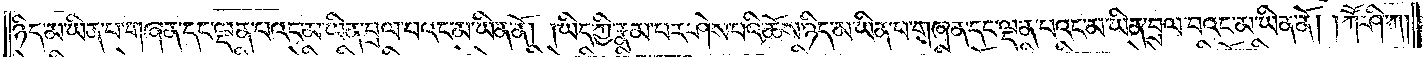ཉིད་མ་ཡིན་པ་གཞན་དང་ལྡན་པའང་མ་ཡིན་བྲལ་བའང་མ་ཡིན་ནོ། །ཡིད་ཀྱི་རྣམ་པར་ཤེས་པའི་ཆོས་ཉིད་མ་ཡིན་པ་གཞན་དང་ལྡན་པའང་མ་ཡིན་བྲལ་བའང་མ་ཡིན་ནོ། །ཀཽ་ཤི་ཀ །
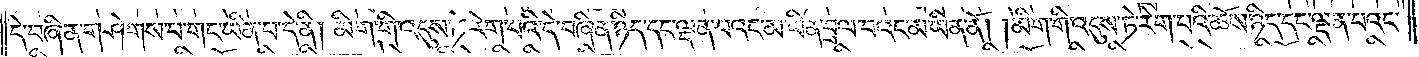དེ་བཞིན་གཤེགས་པ་གང་ཡིན་པ་དེ་ནི། མིག་གི་འདུས་ཏེ་རེག་པའི་དེ་བཞིན་ཉིད་དང་ལྡན་པའང་མ་ཡིན་བྲལ་བའང་མ་ཡིན་ནོ། །མིག་གི་འདུས་ཏེ་རེག་པའི་ཆོས་ཉིད་དང་ལྡན་པའང་
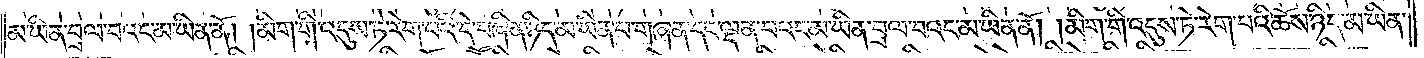མ་ཡིན་བྲལ་བའང་མ་ཡིན་ནོ། །མིག་གི་འདུས་ཏེ་རེག་པའི་དེ་བཞིན་ཉིད་མ་ཡིན་པ་གཞན་དང་ལྡན་པའང་མ་ཡིན་བྲལ་བའང་མ་ཡིན་ནོ། །མིག་གི་འདུས་ཏེ་རེག་པའི་ཆོས་ཉིད་མ་ཡིན་
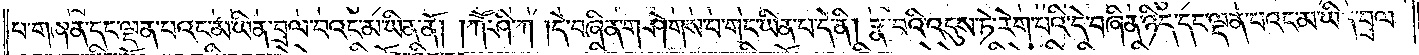པ་གཞན་དང་ལྡན་པའང་མ་ཡིན་བྲལ་བའང་མ་ཡིན་ནོ། །ཀཽ་ཤི་ཀ །དེ་བཞིན་གཤེགས་པ་གང་ཡིན་པ་དེ་ནི། རྣ་བའི་འདུས་ཏེ་རེག་པའི་དེ་བཞིན་ཉིད་དང་ལྡན་པའང་མ་ཡིན་བྲལ་
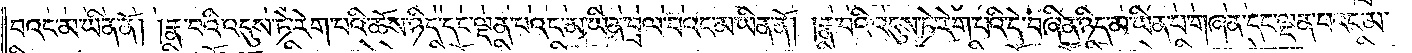བའང་མ་ཡིན་ནོ། །རྣ་བའི་འདུས་ཏེ་རེག་པའི་ཆོས་ཉིད་དང་ལྡན་པའང་མ་ཡིན་བྲལ་བའང་མ་ཡིན་ནོ། །རྣ་བའི་འདུས་ཏེ་རེག་པའི་དེ་བཞིན་ཉིད་མ་ཡིན་པ་གཞན་དང་ལྡན་པའང་མ་
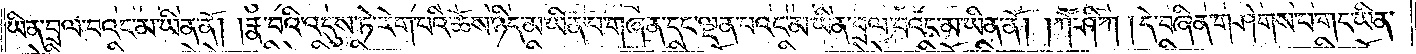ཡིན་བྲལ་བའང་མ་ཡིན་ནོ། །རྣ་བའི་འདུས་ཏེ་རེག་པའི་ཆོས་ཉིད་མ་ཡིན་པ་གཞན་དང་ལྡན་པའང་མ་ཡིན་བྲལ་བའང་མ་ཡིན་ནོ། །ཀཽ་ཤི་ཀ །དེ་བཞིན་གཤེགས་པ་གང་ཡིན་
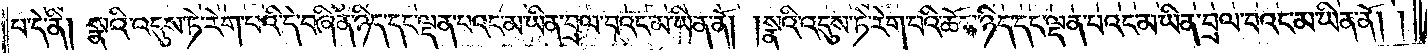པ་དེ་ནི། སྣའི་འདུས་ཏེ་རེག་པའི་དེ་བཞིན་ཉིད་དང་ལྡན་པའང་མ་ཡིན་བྲལ་བའང་མ་ཡིན་ནོ། །སྣའི་འདུས་ཏེ་རེག་པའི་ཆོས་ཉིད་དང་ལྡན་པའང་མ་ཡིན་བྲལ་བའང་མ་ཡིན་ནོ། །
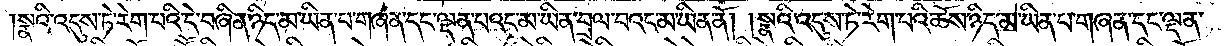སྣའི་འདུས་ཏེ་རེག་པའི་དེ་བཞིན་ཉིད་མ་ཡིན་པ་གཞན་དང་ལྡན་པའང་མ་ཡིན་བྲལ་བའང་མ་ཡིན་ནོ། །སྣའི་འདུས་ཏེ་རེག་པའི་ཆོས་ཉིད་མ་ཡིན་པ་གཞན་དང་ལྡན་
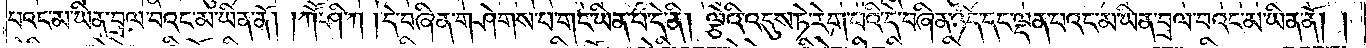པའང་མ་ཡིན་བྲལ་བའང་མ་ཡིན་ནོ། །ཀཽ་ཤི་ཀ །དེ་བཞིན་གཤེགས་པ་གང་ཡིན་པ་དེ་ནི། ལྕེའི་འདུས་ཏེ་རེག་པའི་དེ་བཞིན་ཉིད་དང་ལྡན་པའང་མ་ཡིན་བྲལ་བའང་མ་ཡིན་ནོ། །
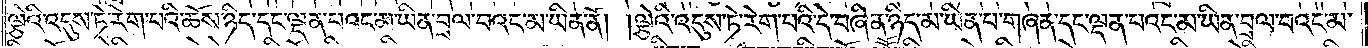ལྕེའི་འདུས་ཏེ་རེག་པའི་ཆོས་ཉིད་དང་ལྡན་པའང་མ་ཡིན་བྲལ་བའང་མ་ཡིན་ནོ། །ལྕེའི་འདུས་ཏེ་རེག་པའི་དེ་བཞིན་ཉིད་མ་ཡིན་པ་གཞན་དང་ལྡན་པའང་མ་ཡིན་བྲལ་བའང་མ་
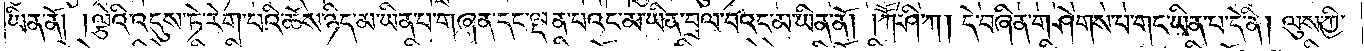ཡིན་ནོ། །ལྕེའི་འདུས་ཏེ་རེག་པའི་ཆོས་ཉིད་མ་ཡིན་པ་གཞན་དང་ལྡན་པའང་མ་ཡིན་བྲལ་བའང་མ་ཡིན་ནོ། །ཀཽ་ཤི་ཀ །དེ་བཞིན་གཤེགས་པ་གང་ཡིན་པ་དེ་ནི། ལུས་ཀྱི་
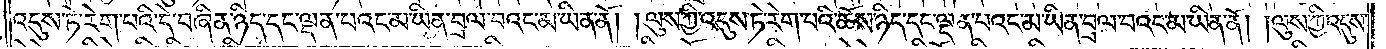འདུས་ཏེ་རེག་པའི་དེ་བཞིན་ཉིད་དང་ལྡན་པའང་མ་ཡིན་བྲལ་བའང་མ་ཡིན་ནོ། །ལུས་ཀྱི་འདུས་ཏེ་རེག་པའི་ཆོས་ཉིད་དང་ལྡན་པའང་མ་ཡིན་བྲལ་བའང་མ་ཡིན་ནོ། །ལུས་ཀྱི་འདུས་
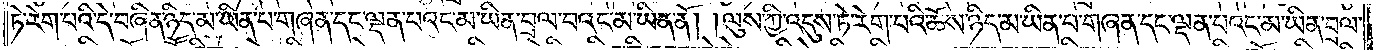ཏེ་རེག་པའི་དེ་བཞིན་ཉིད་མ་ཡིན་པ་གཞན་དང་ལྡན་པའང་མ་ཡིན་བྲལ་བའང་མ་ཡིན་ནོ། །ལུས་ཀྱི་འདུས་ཏེ་རེག་པའི་ཆོས་ཉིད་མ་ཡིན་པ་གཞན་དང་ལྡན་པའང་མ་ཡིན་བྲལ་
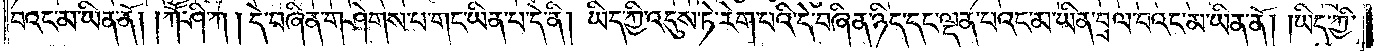བའང་མ་ཡིན་ནོ། །ཀཽ་ཤི་ཀ །དེ་བཞིན་གཤེགས་པ་གང་ཡིན་པ་དེ་ནི། ཡིད་ཀྱི་འདུས་ཏེ་རེག་པའི་དེ་བཞིན་ཉིད་དང་ལྡན་པའང་མ་ཡིན་བྲལ་བའང་མ་ཡིན་ནོ། །ཡིད་ཀྱི་
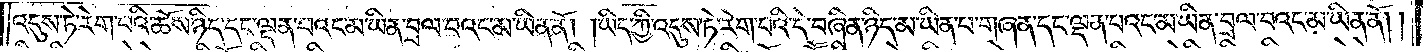འདུས་ཏེ་རེག་པའི་ཆོས་ཉིད་དང་ལྡན་པའང་མ་ཡིན་བྲལ་བའང་མ་ཡིན་ནོ། །ཡིད་ཀྱི་འདུས་ཏེ་རེག་པའི་དེ་བཞིན་ཉིད་མ་ཡིན་པ་གཞན་དང་ལྡན་པའང་མ་ཡིན་བྲལ་བའང་མ་ཡིན་ནོ། །
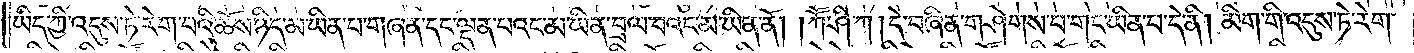ཡིད་ཀྱི་འདུས་ཏེ་རེག་པའི་ཆོས་ཉིད་མ་ཡིན་པ་གཞན་དང་ལྡན་པའང་མ་ཡིན་བྲལ་བའང་མ་ཡིན་ནོ། །ཀཽ་ཤི་ཀ །དེ་བཞིན་གཤེགས་པ་གང་ཡིན་པ་དེ་ནི། མིག་གི་འདུས་ཏེ་རེག་
